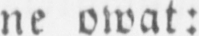ne owat:
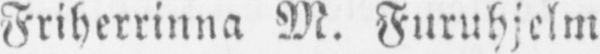Friherrinna M. Furuhjelm
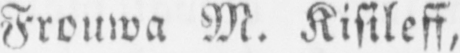Frouwa M. Risileff,
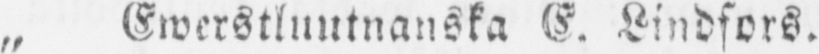„ Ewerstluutnanska E. Lindfors.
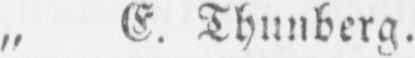„ E. Thunberg.
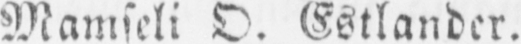Mamseli D. Estlander.
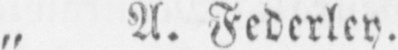„ A. Federley.
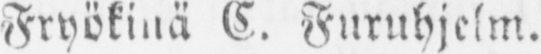Fryökinä C. Furuhjelm.
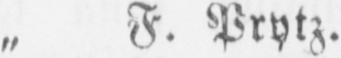„ F. Prytz.
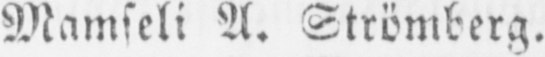Mamseli A. Strömberg.
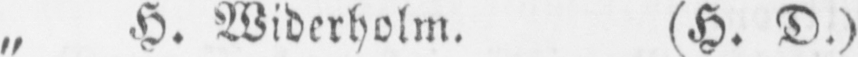„ H. Widerholm. (H. D.)
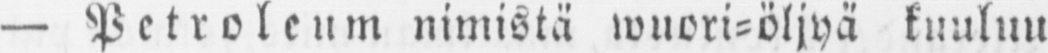— Petroleum nimistä wuori-öljyä kuuluu
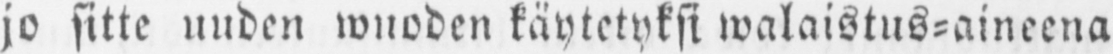jo sitte uuden wuoden käytetyksi walaistus-aineena
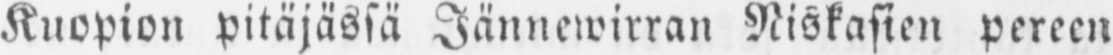Kuopion pitäjässä Jännewirran Niskasien pereen
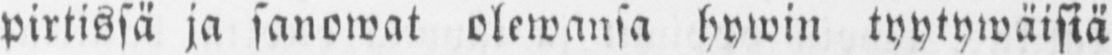pirtissä ja sanowat olewansa hywin tyytywäisiä
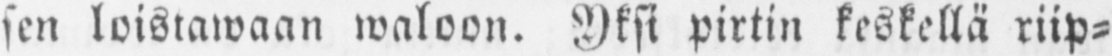sen loistawaan waloon. Yksi pirtin keskellä riip-
